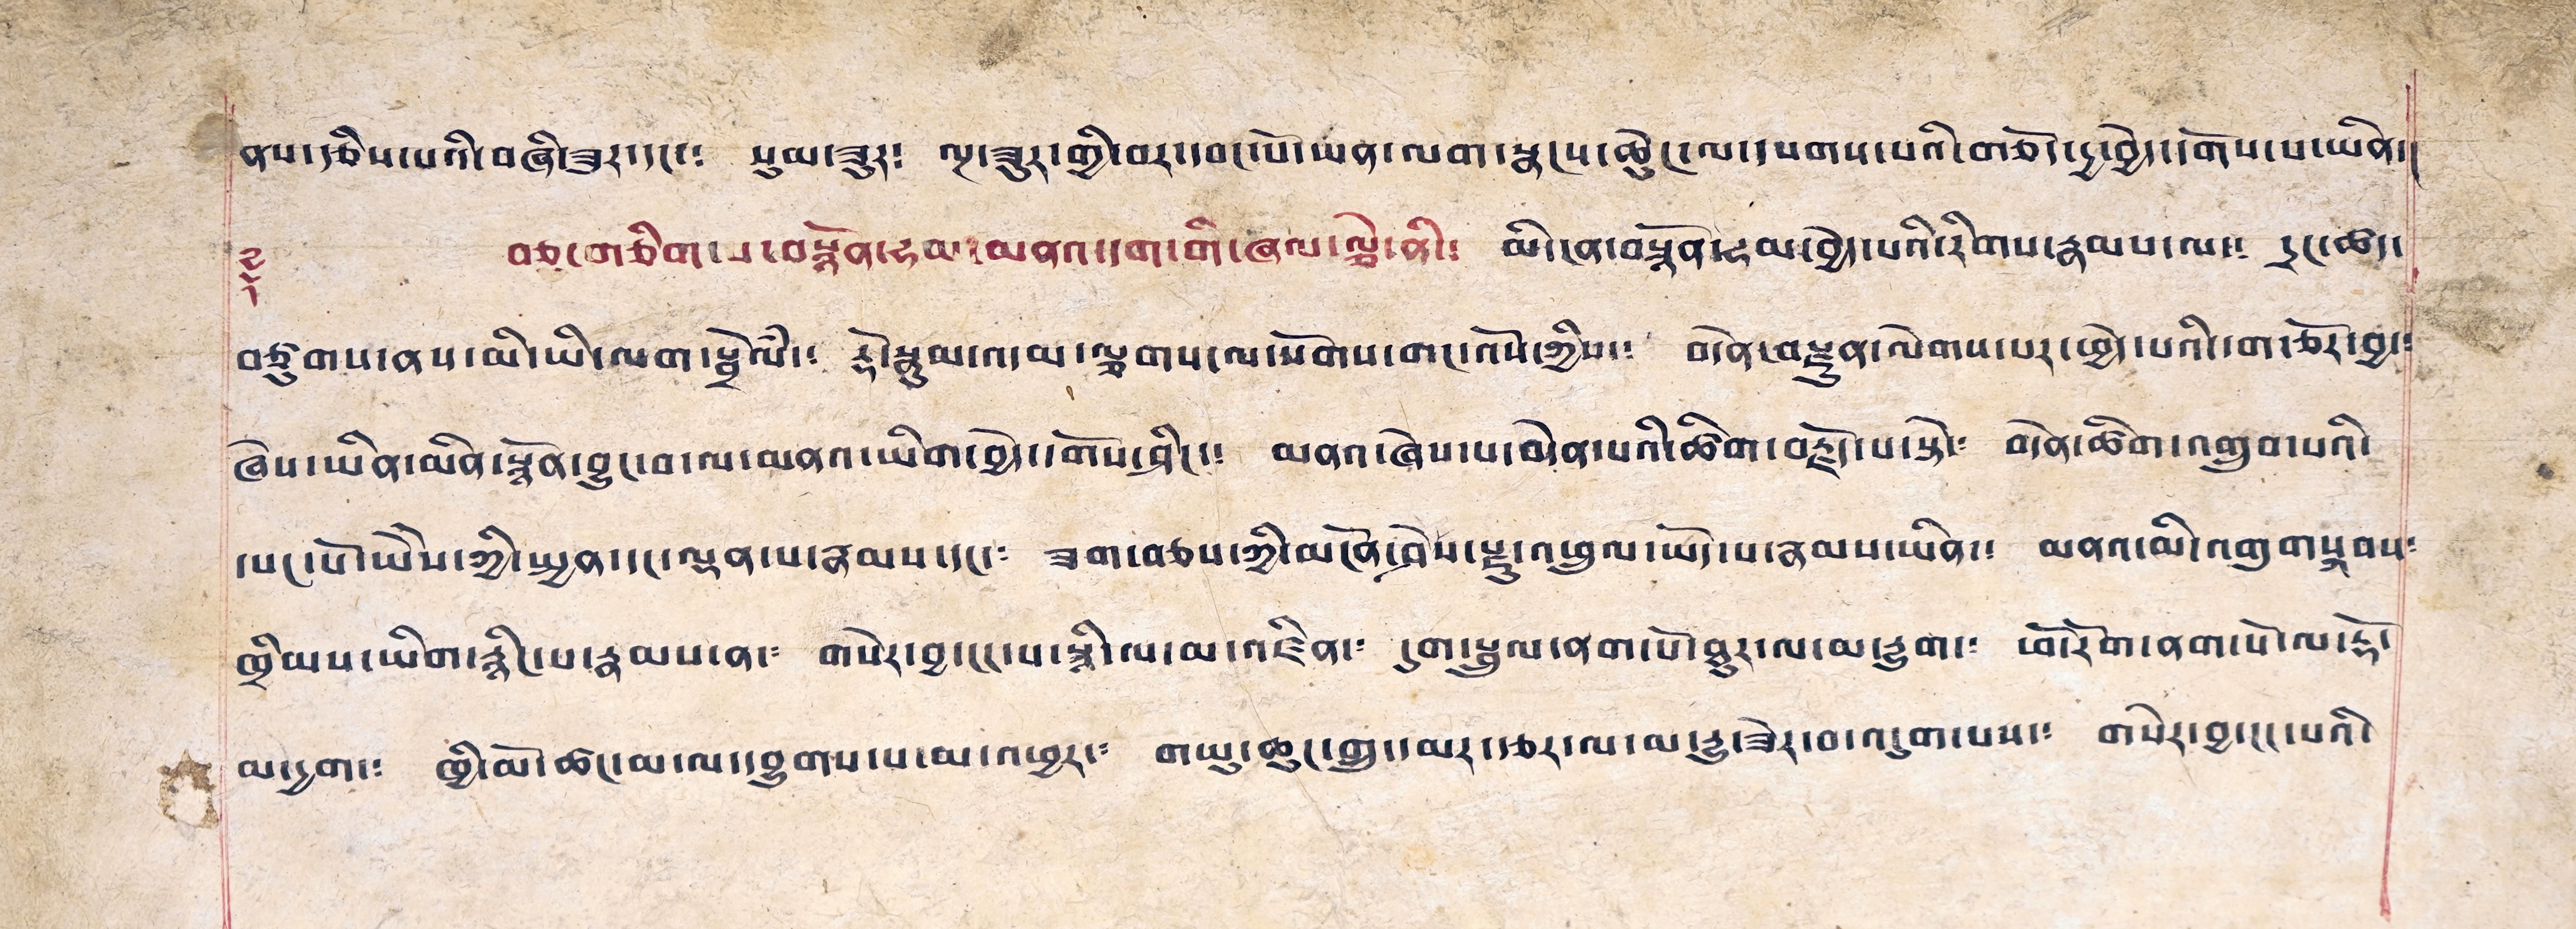ནས་རྩིས་པའི་བཞི་ཟུར་དང་༴ སུམ་ཟུར། ལྔ་ཟུར་གྱི་བར་དབང་པོ་ཡན་ལག་སྣངས་ཆེུང་ལ་དཔགས་པའི་གཅོད་དྱ་བྱེད་དགོས་པ་ཡིན།
༈ བཅུ་གཅིག་པ་བསྙོན་ཧམ་མནའ་དག་གི་ཞལ་ལྕེ་ནི་༴ མི་ངན་བསྙོན་ཧམ་བྱེད་པའི་རིགས་རྣམས་ལ་༴ དྲང་ཚད་
བཙུགས་ནས་མི་ཡི་ལག་སྦྲེལཾ་༴ རྡོ་སྣུམ་འདམ་ལྕགས་ལ་སོགས་གང་འོས་ཀྱིས་༴ བདེན་བརྫུན་ལེགས་པར་ཕྱེད་པའི་གཙོར་བྱ༴
ཞེས་ཡིན་མིན་སྙོན་བྱུང་བ་ལ་མནའ་ཡིག་བྱེད་དགོས་ཤིང་༴ མནའ་ཞེས་པ་བདེན་པའི་ཚིག་བརྗོད་པ་སྟེ་༴ བདེན་ཚིག་འགྲུབ་པའི་
དཔང་པོ་ཡཻས་ཀྱི་སྤྱན་དང་ལྡན་པ་རྣམས་དང་༴ ཟག་བཅས་ཀྱི་མངོན་ཤེས་རྫུ་འཕྲུལ་ཡོད་པ་རྣམས་ཡིན་༴ མནའ་མི་འགུགསྐབས༴
ཁྲིམས་ཡིག་རྙིང་པ་རྣམས་ན་༴ གསེར་བྱ་ངང་པ་སྙི་ལ་མ་འཛིན་༴ དུག་སྦྲུལ་ནག་པོ་ཐུར་ལ་མ་དྱུག་༴ ཕོ་རོག་ནག་པོ་ལ་རྡོ་
མ་དྱག་༴ ཁྱི་མོ་ཚང་མ་ལ་དབྱུགས་པ་མ་འཕྱར་༴ གཡུ་ཆུང་གྲུ་དམར་རྩར་ལ་མ་དྱུ་ཟེར་བ་འདུག་པས་༴ གསེར་བྱ་ངང་པའི་
